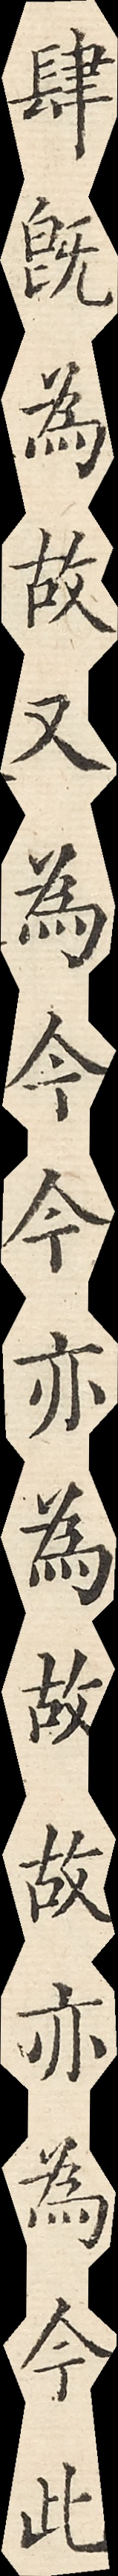肆既為故又為今今亦為故故亦為今此
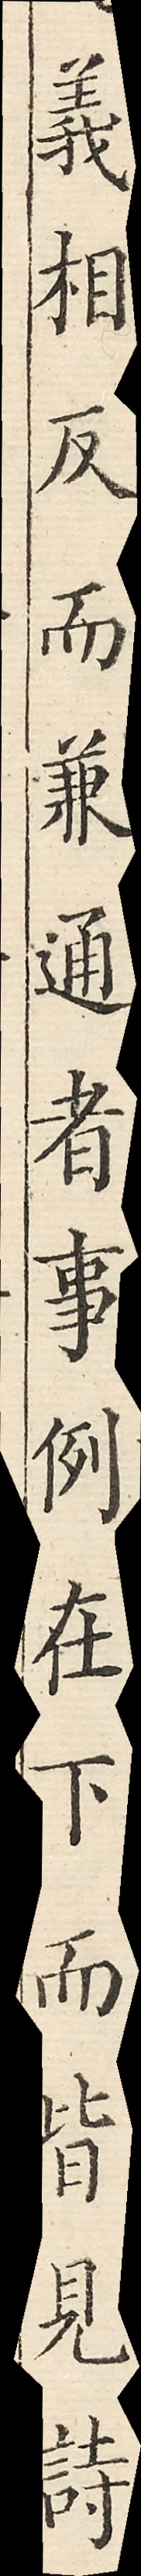義相反而兼通者事例在下而皆見詩
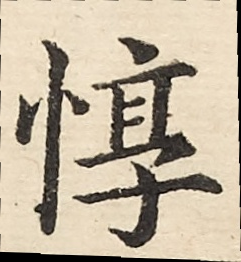惇
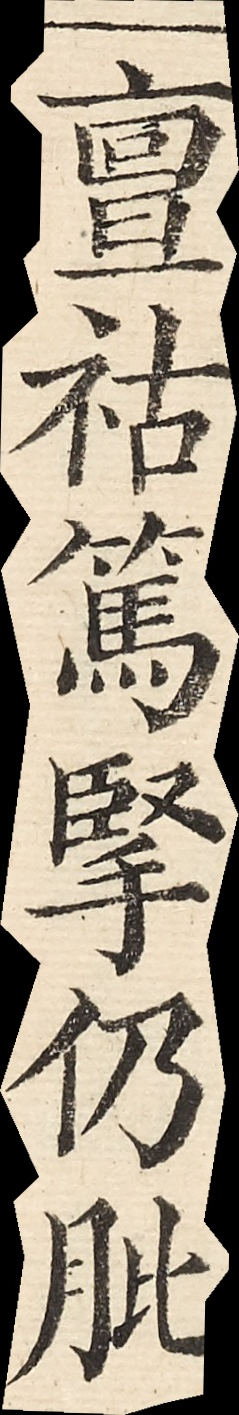亶祜篤掔仍肶
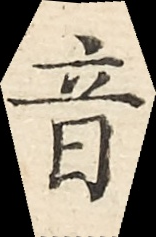音
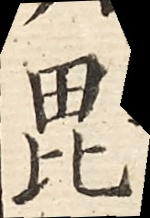毘
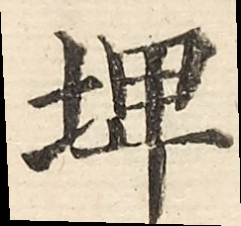埤
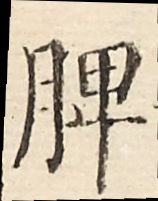脾
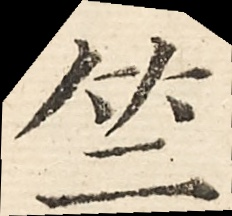竺
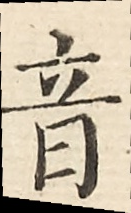音
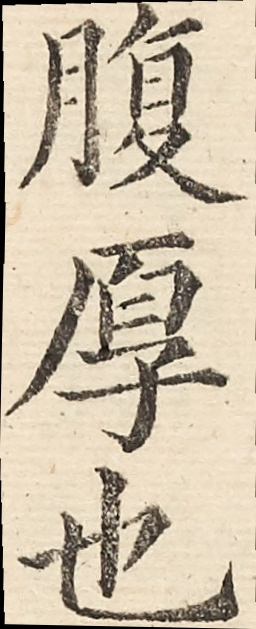腹厚也
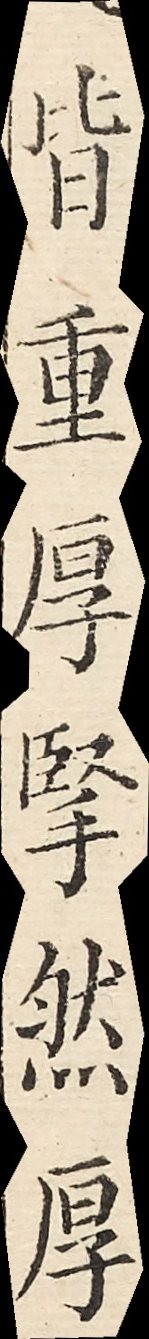皆重厚掔然厚
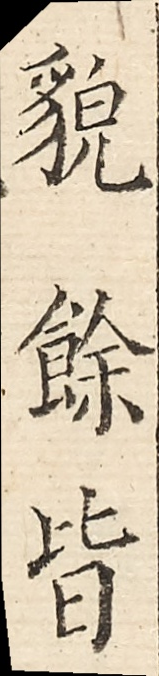貌餘皆
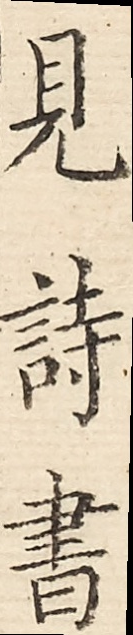見詩書
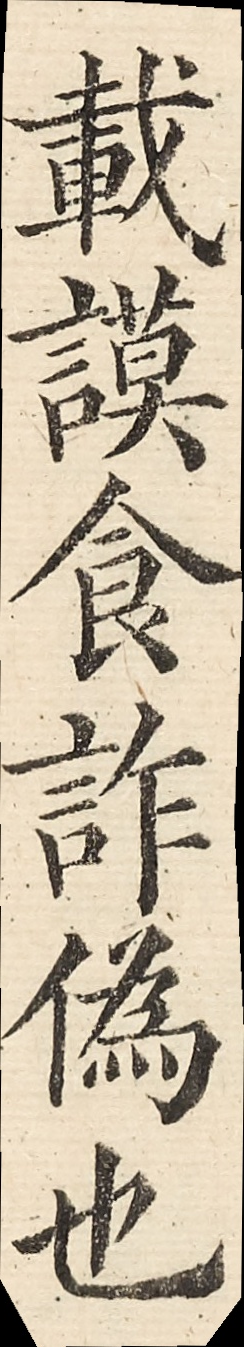載謨食詐偽也
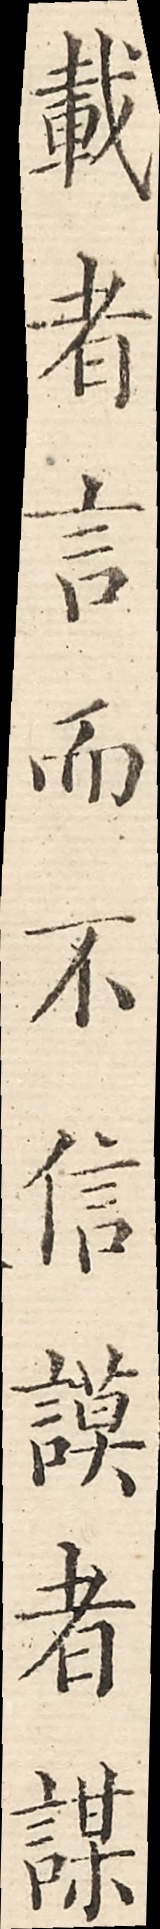載者言而不信謨者謀
